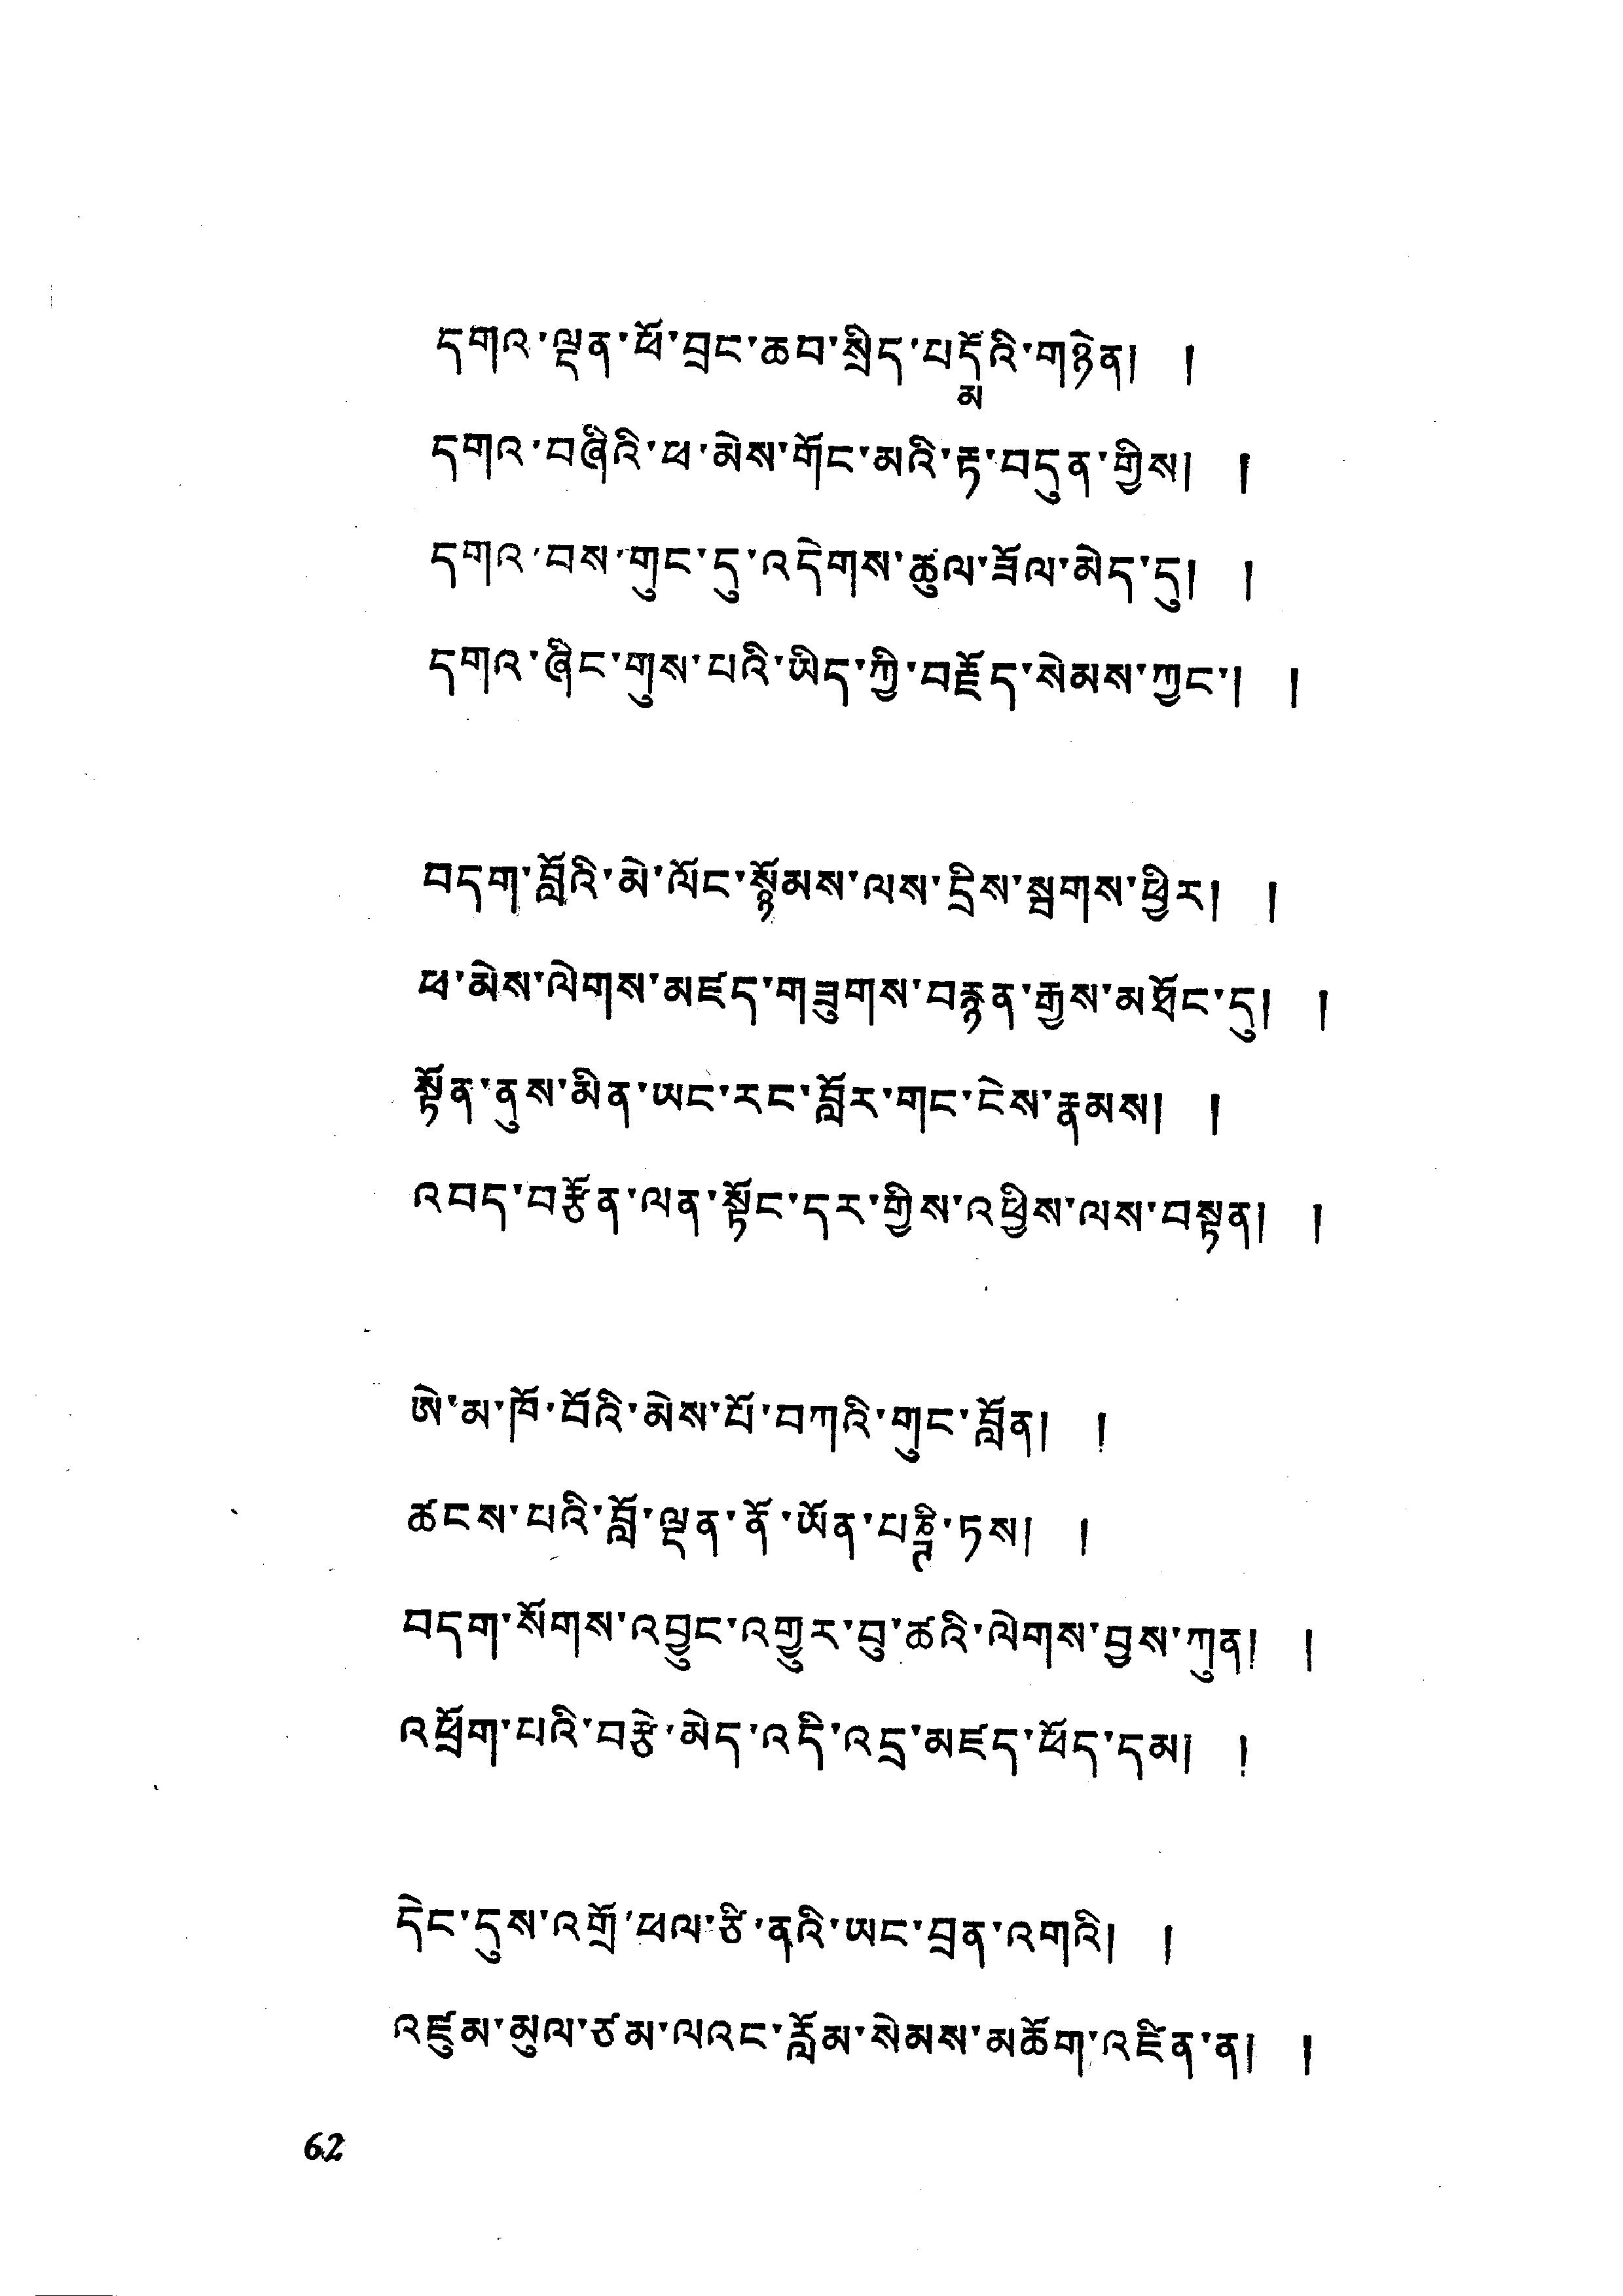དགའ་ལྡན་ཕོ་བྲང་ཆབ་སྲིད་པདྨོའི་གཉེན། །
དགའ་བཞིའི་ཕ་མེས་གོང་མའི་རྟ་བདུན་གྱིས། །
དགའ་བས་གུང་དུ་འདེགས་ཚུལ་ཟོལ་མེད་དུ། །
དགའ་ཞིང་གུས་པའི་ཡིད་ཀྱི་བརྗོད་སེམས་ཀྱང་། །
བདག་བློའི་མེ་ལོང་སྙོམས་ལས་དྲིས་སྦགས་ཕྱིར། །
ཕ་མེས་ལེགས་མཛད་གཟུགས་བརྙན་རྒྱས་མཐོང་དུས། །
སྟོན་ནུས་མིན་ཡང་རང་བློར་གང་ངེས་རྣམས། །
འབད་བརྩོན་ལན་སྟོང་དར་གྱིས་འཕྱིས་ལས་བསྟན། །
ཨེ་མ་ཁོ་བོའི་མེས་པོ་བཀའི་གུང་བློན། །
ཚངས་པའི་བློ་ལྡན་ནོ་ཡོན་པཎྚི་ཏས། །
བདག་སོགས་འབྱུང་འགྱུར་བུ་ཚའི་ལེགས་བྱས་ཀུན། །
འཕྲོག་པའི་བརྩེ་མེད་འདི་འདྲ་མཛད་ཕོད་དམ། །
དེང་དུས་འགྲོ་ཕལ་ཙི་ནའི་ཡང་བྲན་འགའི། །
འཛུམ་མུལ་ཙམ་ལའང་རློམ་སེམས་མཆོག་འཛིན་ན། །
62
